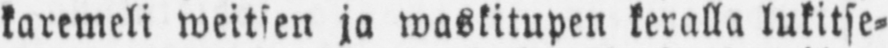karemeli weitsen ja waskitupen keralla lukitse-
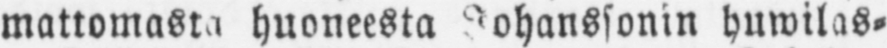mattomasta huoneesta Johanssonin huwilas-
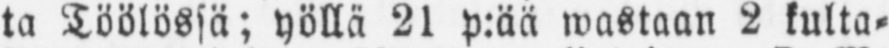ta Töölössä; yöllä 21 p:ää wastaan 2 kulta-
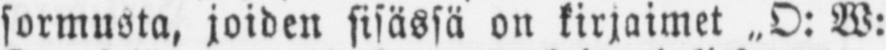sormusta, joiden sisässä on kirjaimet ˶O: W:
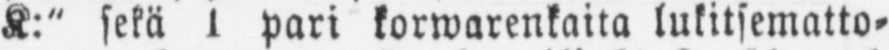K:" sekä l pari korwarenkaita lukitsematto-
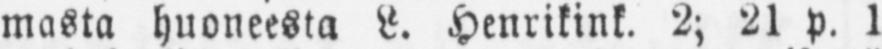masta huoneesta L. Henrikink. 2; 21 p. 1
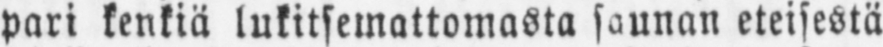pari kenkiä lukitsemattomasta saunan eteisestä
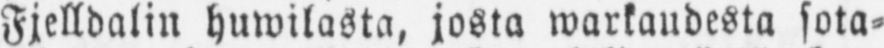Fjelldalin huwilasta, josta warkaudesta sota-
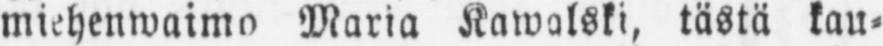miehenwaimo Maria Kawalski, tästä kau-
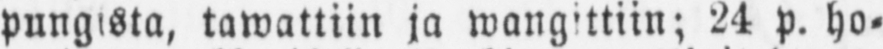pungista, tawattiin ja wangsttiin; 24 p. ho-
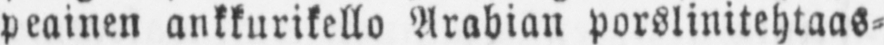peainen ankkurikello Arabian porslinitehtaas-
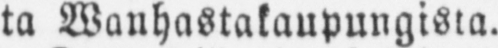ta Wanhastakaupungista.
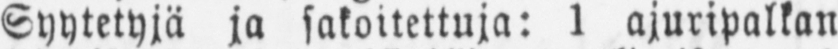Syytetyjä ja sakoitettuja: 1 ajuripalkan
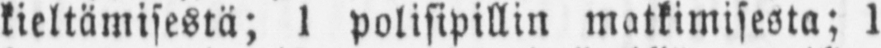kieltämisestä; 1 polisipillin matkimisesta; 1
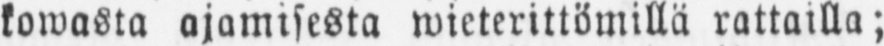kowasta ajamisesta wieterittömillä rattailla;
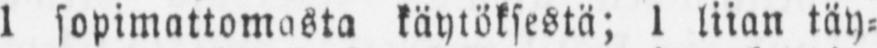1 sopimattomasta käytöksestä; 1 liian täy-
